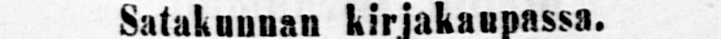Satakunnan kirjakaupassa.
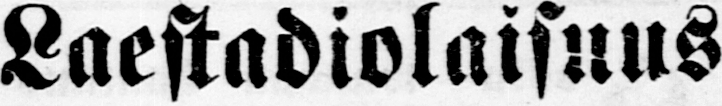Laestadiolaisuus
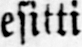esitti
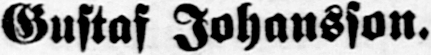Gustaf Johansson.
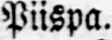Piispa.
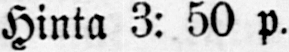Hinta 3: 50 p.
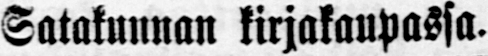Satakunnan kirjakaupassa.
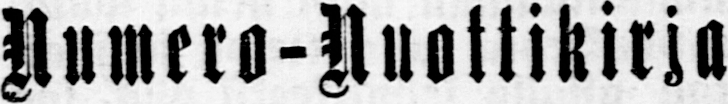Numero-Nuottikirja
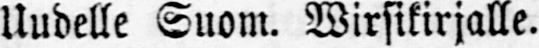Uudelle Suom. Wirsikirjalle.
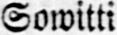Sowitti
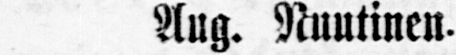Aug. Nuutinen.
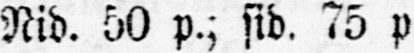Nid. 50 p.; sid. 75 p.
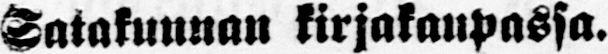Satakunnan kirjakaupassa.
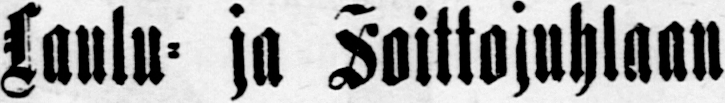Laulu- ja Soittojuhlaan
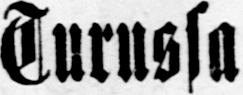Turussa
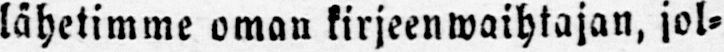lähetimme oman kirjeenwaihtajan, jol-
